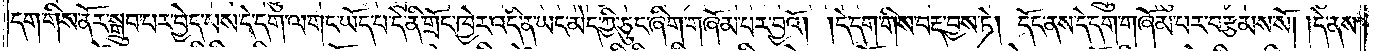དག་གིས་ནོར་སྒྲུབ་པར་བྱེད་པས་དེ་དག་ལ་གང་ཡོད་པ་དེ་ནི་གྲོང་ཁྱེར་འདི་ན་ཡང་མེད་ཀྱི་ཅུང་ཞིག་གཞོམ་པར་བྱའོ། །དེ་དག་གིས་བརྡ་བྱས་ཏེ། དོང་ནས་དེ་དག་གཞོམ་པར་བརྩམས་སོ། །དེ་ནས་
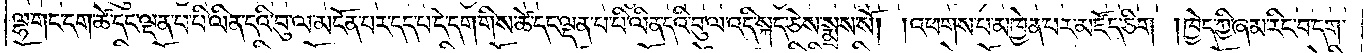ལྷ་གང་དག་ཚེ་དང་ལྡན་པ་པི་ལིན་དའི་བུ་ལ་མངོན་པར་དད་པ་དེ་དག་གིས་ཚེ་དང་ལྡན་པ་པི་ལིན་དའི་བུ་ལ་འདི་སྐད་ཅེས་སྨྲས་སོ། །འཕགས་པ་མཁྱེན་པར་མཛོད་ཅིག །ཁྱེད་ཀྱི་ཞམ་རིང་བ་དག་
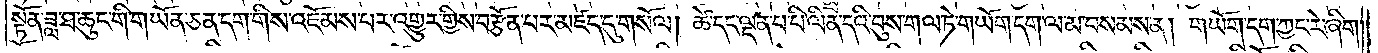སྟོན་ཟླ་ཐ་ཆུང་གི་གཡོན་ཅན་དག་གིས་འཇོམས་པར་འགྱུར་གྱིས་བརྩོན་པར་མཛད་དུ་གསོལ། ཚེ་དང་ལྡན་པ་པི་ལིན་དའི་བུས་གལ་ཏེ་གཡོག་དག་ལ་མ་བསམས་ན། གཡོག་དག་ཀྱང་རེ་ཞིག་
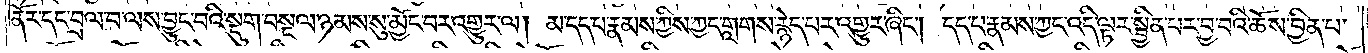ནོར་དང་བྲལ་བ་ལས་བྱུང་བའི་སྡུག་བསྔལ་ཉམས་སུ་མྱོང་བར་འགྱུར་ལ། མ་དད་པ་རྣམས་ཀྱིས་ཀྱང་གླགས་རྙེད་པར་འགྱུར་ཞིང༌། དད་པ་རྣམས་ཀྱང་འདི་ལྟར་སྦྱིན་པར་བྱ་བའི་ཆོས་བྱིན་པ་
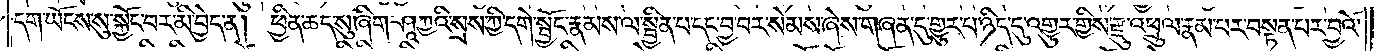དག་ཡོངས་སུ་སྐྱོང་བར་མི་བྱེད་ན། ཕྱིན་ཆད་སུ་ཞིག་ཤཱཀྱའི་སྲས་ཀྱི་དགེ་སྦྱོང་རྣམས་ལ་སྦྱིན་པ་དང་བྱ་བར་སེམས་ཞེས་གཞན་དུ་གྱུར་པ་ཉིད་དུ་འགྱུར་གྱིས་རྫུ་འཕྲུལ་རྣམ་པར་བསྟན་པར་བྱའོ་
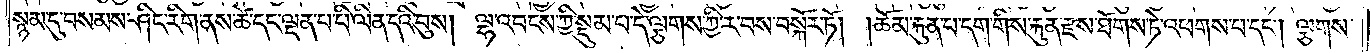སྙམ་དུ་བསམས་ཤིང་རིག་ནས་ཚེ་དང་ལྡན་པ་པི་ལིན་དའི་བུས། ལྷ་འབངས་ཀྱི་སྡུམ་པ་དེ་ལྕགས་ཀྱི་ར་བས་བསྐོར་ཏོ། །ཆོམ་རྐུན་པ་དག་གིས་རྐུན་རྫས་ཐོགས་ཏེ་འཕགས་པ་དང༌། ལྕགས་
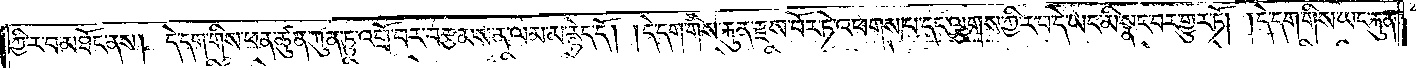ཀྱི་ར་བ་མཐོང་ནས། དེ་དག་གིས་ཕན་ཚུན་ཀུན་ཏུ་འགྲོ་བར་བརྩམས་ན་ལམ་མ་རྙེད་དོ། །དེ་དག་གིས་རྐུན་རྫས་བོར་ཏེ་འཕགས་པ་དང་ལྕགས་ཀྱི་ར་བ་དེ་ཡང་མི་སྣང་བར་གྱུར་ཏོ། །དེ་དག་གིས་ཡང་རྐུན་
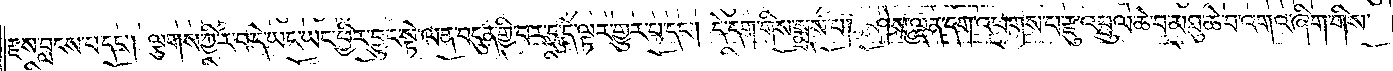རྫས་བླངས་པ་དང༌། ལྕགས་ཀྱི་ར་བ་དེ་ཡང་ཡང་ཕྱིར་བྱུང་སྟེ་ལན་བདུན་གྱི་བར་དུ་དེ་ལྟར་གྱུར་པ་དང༌། དེ་དག་གིས་སྨྲས་པ། ཤེས་ལྡན་དག་འཕགས་པ་རྫུ་འཕྲུལ་ཆེ་བ་མཐུ་ཆེ་བ་འགའ་ཞིག་གིས་
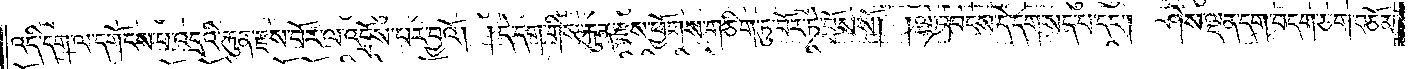འདི་དག་ལ་དགོངས་པ་འདྲའི་རྐུན་རྫས་བོར་ལ་འབྲོས་པར་བྱའོ། །དེ་དག་གིས་རྐུན་རྫས་ཕྱོགས་གཅིག་ཏུ་བོར་ཏེ་བྲོས་སོ། །ལྷ་འབངས་དེ་དག་སད་པ་དང༌། ཤེས་ལྡན་དག་བདག་ཅག་བཅོམ་
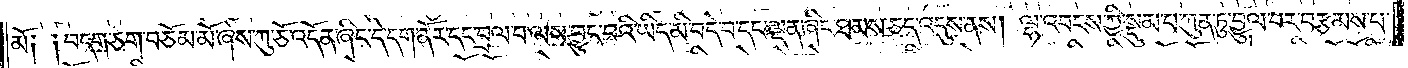མོ༑ ༑བདག་ཅག་བཅོམ་མོ་ཞེས་ཀུ་ཅོ་འདོན་ཞིང་དེ་དག་ནོར་དང་བྲལ་བ་ལས་བྱུང་བའི་ཡིད་མི་བདེ་བ་དང་ལྡན་ཞིང་ཐམས་ཅད་འདུས་ནས། ལྷ་འབངས་ཀྱི་སྡུམ་པ་ཀུན་ཏུ་བྱུལ་བར་བརྩམས་པ་
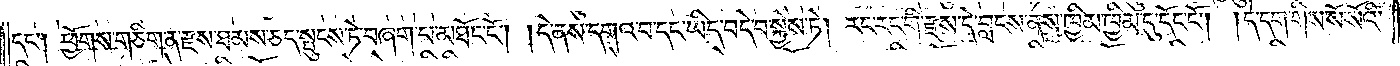དང་༑ ཕྱོགས་གཅིག་ན་རྫས་ཐམས་ཅད་སྤུངས་ཏེ་བཞག་པ་མཐོང་ངོ༌། །དེ་ནས་དགའ་བ་དང་ཡིད་བདེ་བ་སྐྱེས་ཏེ། རང་རང་གི་རྫས་དེ་བླངས་ནས་ཁྱིམ་ཁྱིམ་དུ་དོང་ངོ༌། །དེ་དག་གིས་སོ་སོའི་
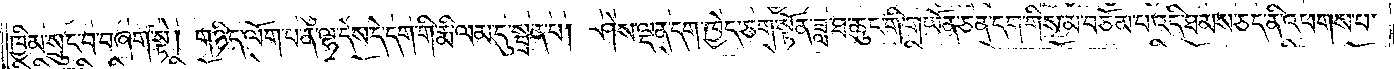ཁྱིམ་སྲུང་བ་བཞག་སྟེ། གཉིད་ལོག་པ་ན་ལྷ་དེས་དེ་དག་གི་རྨི་ལམ་དུ་སྦྲན་པ། ཤེས་ལྡན་དག་ཁྱེད་ཅག་སྟོན་ཟླ་ཐ་ཆུང་གི་གཡོན་ཅན་དག་གིས་མ་བཅོམ་པ་འདི་ཐམས་ཅད་ནི་འཕགས་པ་
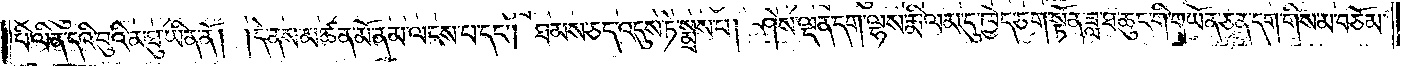པི་ལིན་དའི་བུའི་མཐུ་ཡིན་ནོ། །དེ་ནས་མཚན་མོ་ནམ་ལངས་པ་དང༌། ཐམས་ཅད་འདུས་ཏེ་སྨྲས་པ། ཤེས་ལྡན་དག་ལྷས་རྨི་ལམ་དུ་ཁྱེད་ཅག་སྟོན་ཟླ་ཐ་ཆུང་གི་གཡོན་ཅན་དག་གིས་མ་བཅོམ་
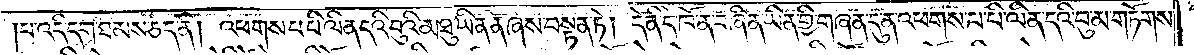པ་འདི་དག་ཐམས་ཅད་ནི། འཕགས་པ་པི་ལིན་དའི་བུའི་མཐུ་ཡིན་ནོ་ཞེས་བསྟན་ཏེ། དེ་ནི་དེ་ཁོ་ན་བཞིན་ཡིན་གྱི་གཞན་དུ་ན་འཕགས་པ་པི་ལིན་དའི་བུ་མ་གཏོགས་
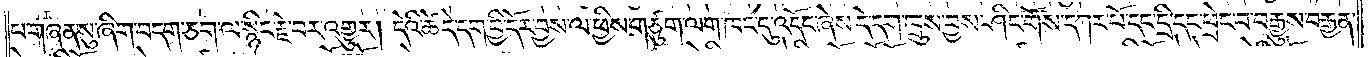པ་གཞན་སུ་ཞིག་བདག་ཅག་ལ་སྙིང་རྗེ་བར་འགྱུར། དེའི་ཚེ་དེ་དག་བྱི་དོར་བྱས་ལ་ཕྱིས་གཙུག་ལག་ཁང་དུ་འདོང་ཞེས་དེ་དག་ཁྲུས་བྱས་ཤིང་གོས་དཀར་པོ་དང་དྲི་དང་ཕྲེང་བ་བརྒྱུས་བརྒྱན་
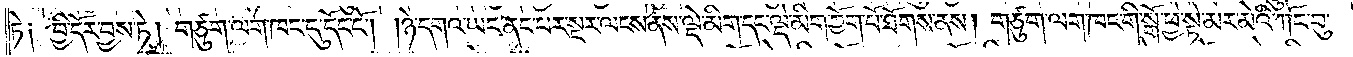ཏེ༑ བྱི་དོར་བྱས་ཏེ། གཙུག་ལག་ཁང་དུ་དོང་ངོ༌། །ཉེ་དགའ་ཡང་ནང་པར་སྔར་ལངས་ནས་ལྡེ་མིག་དང་ལྡེ་མིག་ཀྱོག་པོ་ཐོགས་ནས། གཙུག་ལག་ཁང་གི་སྒོ་ཕྱེ་སྟེ་མར་མེའི་ཀོང་བུ་
